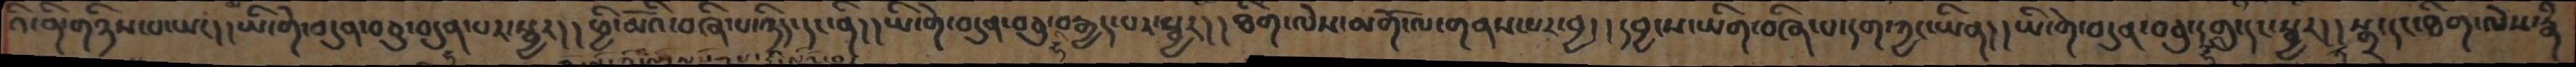འི་ནི་གཉིས་པ་ཡང། །ཡི་གེ་བདུན་བཅུ་བདུན་པར་སྦྱར། །ཕྱི་མོའི་བཞི་པ་ཉིད་དང་ནི། །ཡི་གེ་བདུན་བཅུ་བརྒྱད་པར་སྦྱར། །ཐིག་ལེས་མགོ་ལ་གནས་པར་བྱད། །དབྱངས་ཡིག་བཞི་པ་དག་ཀྱང་ཡིན། །ཡི་གེ་བདུན་བཅུ་གླུ་དང་སྦྱར། །སྒྲ་དང་ཐིག་ལེས་རྣཾ
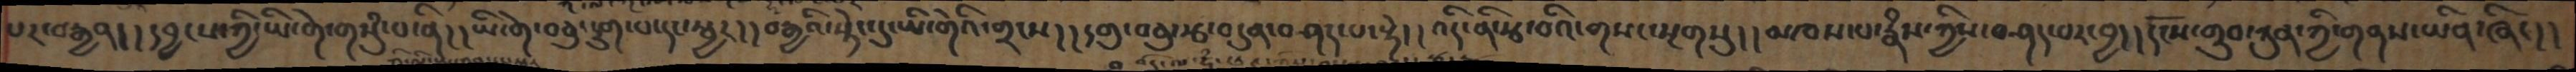པར་བརྒྱན། །དབྱངས་ཀྱི་ཡི་གེ་གསུཾ་པ་ནི། །ཡི་གེ་བཅུ་དྲུག་པ་དང་སྦྱར། །བརྒྱའི་སྟེང་དུ་ཡི་གེའི་གྲངས། །དགུ་བཅུ་རྩ་བདུན་བཤད་པ་སྟེ། །འདི་ནི་རྩ་བའི་གསང་སྔགསུ། །མཁས་པ་རྣཾས་ཀྱིས་བཤད་པར་བྱ། །དངོས་གྲུབ་ཀུན་ཀྱི་གནས་ཡིན་ཞིང། །
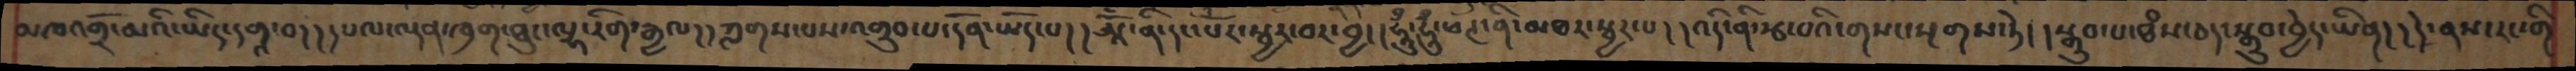མཁའགྲོ་མའི་ཡིད་དགའ་བ། །དཔལ་ལྡན་ཁྲག་ཐུང་ལྷ་རིག་རྒྱལ། །ཀླགས་པས་འགྲུབ་པ་དོན་ཡོད་པ། །ཨཱོྃ་ནི་དང་པོར་སྦྱར་བར་བྱ། །ཧཱུྃ་ཧཱུྃ་ཕཊ་ནི་མཐར་སྦྱར་པ། །འདི་ནི་རྩ་བའི་གསང་སྔགས་ཏེ། །སྒྲུབ་པ་ཐཾས་ཅད་སྒྲུབ་བྱེད་ཡིན། །དེ་ནས་རང་གི
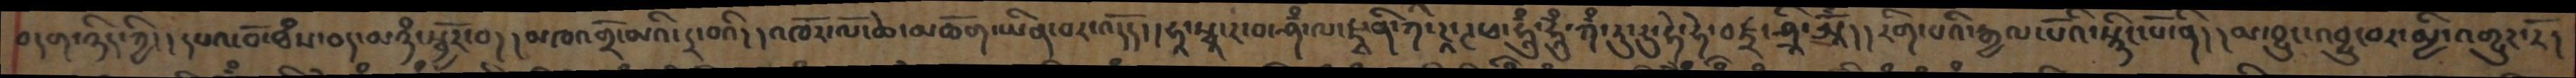བདག་ཉིད་ཀྱི།།དཔའ་བོ་ཐཾས་ཅད་མཉཾ་སྦྱོར་བ།།མཁའགྲོ་མའི་དྲ་བའི།།འཁོར་ལོ་ཆེ་མཆོག་ཡིན་པར་འདོད།།དྷ་སྭཱ་ར་བ་ཤཾ་ལ་ཛྭ་ནི་ཀི་ཌཱ་ཊཕ་ཧཱུྃ་ཧཱུྃ་ཀྃ་རུ་ཏུ་ཧེ་ཧེ་བཛྲ་ཤྲི་ཨཱོྃ།།རིག་པའི་རྒྱལ་པོའི་སྙིང་པོ་ནི།།མ་བྱུང་འབྱུང་བར་མྱི་འགྱུར་རོ།
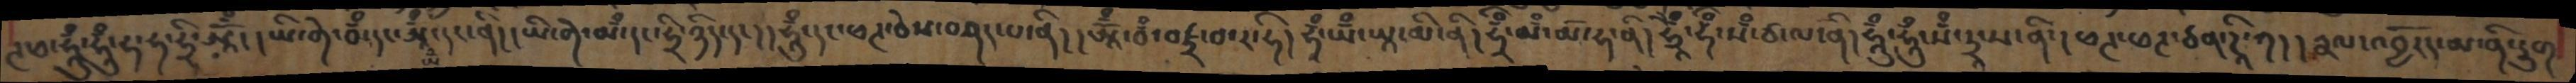ཊ་ཕ་ཧཱུྃ་ཧཱུྃ་ཧ་ཧ་ཧྲི་ཨཱོྃ།།ཡི་གེ་བྃ་དང་ཨཱྃ་དང་ནི།།ཡི་གེ་མྃ་དང་ཧྲི་ཉིད་དང།།ཧཱུྃ་དང་ཕཊ་ཅེས་བཤད་པ་ནི།།ཨཱོྃ་བྃ་བཛྲ་བ་ར་ཧི།ཧཱྃ་ཡྃ་ཡཱ་མི་ནི། ཧཱྃ་མྃ་མོ་ཧ་ནི།  ཧྲཱོྃ་ཧྃ་སཾ་ཙ་ལ་ནི། ཧཱུྃ་ཧཱུྃ་སྃ་དྲཱ་ས་ནི་།ཕཊ་ཕཊ་ཙན་ཌཱི་ཀ།།རྣལ་འབྱོརད་མ་ནི་དྲུག
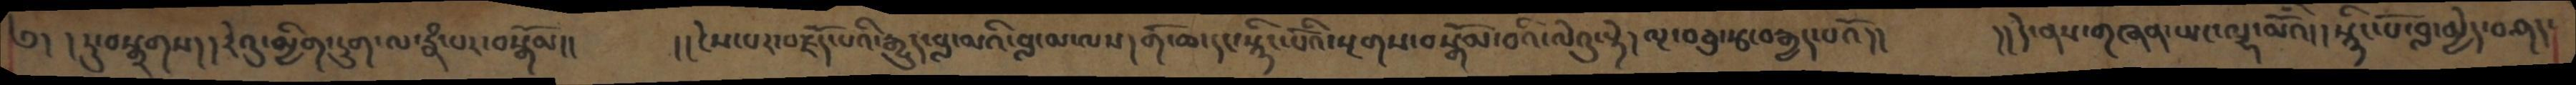༅། །ཏུ་བསྒྲགས།།རེའུ་མྱིག་དྲུག་ལ་རྣཾ་པར་བསྒོམ།།     །། ངེས་པར་བརྗོད་པའི་རྒྱུད་བླ་མའི་བླ་མ་ལས།གོ་ཆ་དང་སྙིང་པོའི་སྔགས་བསྒོམ་བའི་ལེའུ་སྟེ། ལྔ་བཅུ་རྩ་བརྒྱད་པའོ།།      །།དེ་ནས་གཞན་ཡང་ལྷ་མོའི།།སྙིང་པོ་བླ་མྱེད་བཤད་
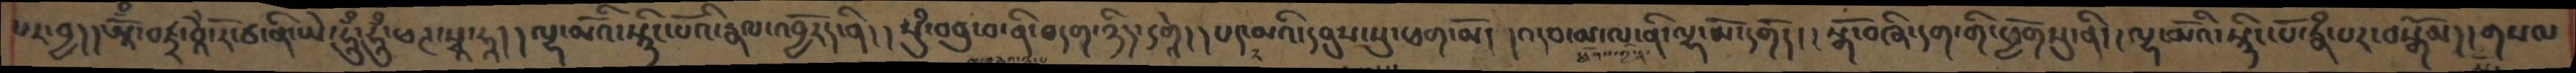པར་བྱ་།།ཨོྃ་བཛྲ་བཱཻ་རོ་ཙ་་ནི་ཡེ་ཧཱུྃ་ཧཱུྃ་ཕཊ་སྭཱ་ཧཱ། །ལྷ་མོའི་སྙིང་པོའི་རྣལ་འབྱོརད་ནི། །སུཾ་བཅུ་བ་ནི་བདག་ཉིད་དགེའ། །་པད་མའི་དབུས་སུ་ཕག་མོ། །འདབ་མ་ལ་ནི་ལྷ་མོ་དགོད། །སྒོ་བཞི་དག་གི་ཕྱོགསུ་ནི།།ལྷ་མོའི་སྙིང་པོ་རྣཾ་པར་བསྒོམ།།གསལ
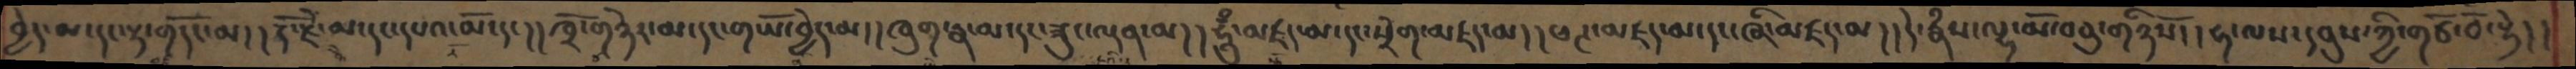བྱེད་མ་དང་རྟ་གདོང་མ།།རྡོ་རྗེ་མ་དང་དཔའ་མོ་དང་།།ཁྲོ་གཉེར་མ་དང་གཡོ་བྱེད་མ།།ཁུག་རྣ་མ་དང་ཟུང་ལྡན་མ།།ཧཱུྃ་མཛད་མ་དང་སྲེག་མཛད་མ།།ཕཊ་མཛད་མ་དང་ཞི་མཛད་མ།།དེ་རྣཾས་ལྷ་མོ་བཅུ་གཉིསོ།།ཧ་ལས་དབུས་ཀྱི་གཙོ་བོ་སྟེ། །
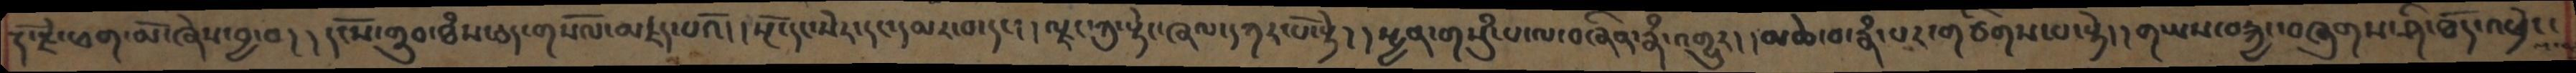རྡོ་རྗེ་ཕག་མོ་ཞེས་བྱ་བ། །དངོས་གྲུབ་ཐཾས་ཅད་གསོལ་མཛད་པའོ། །སྔོ་དང་སེར་དང་དམར་བ་དང་། །ལྗང་ཀུ་སྟེང་ཞལ་དཀར་པོ་སྟེ། །སྤྱན་གསུཾ་པ་ལ་བཞིན་རྣཾ་འགྱུར། །མཆེ་བ་རྣཾ་པར་གཙིགས་པར་སྟེ། །གཡས་བརྐྱང་བཞུགས་ཤི་ཐོད་འཕྲེང་
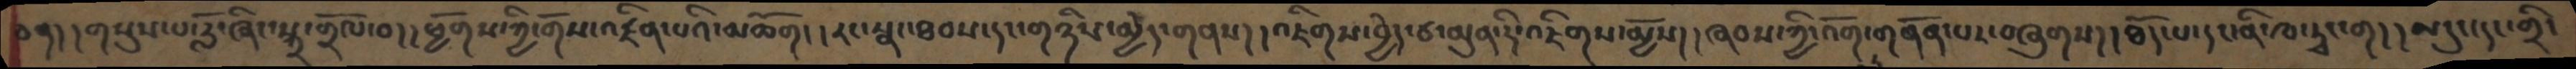ཅན།།གསུས་པ་རློ་ཞིང་སྐྲ་གྲོལ་བ།།ཕྱོགས་ཀྱི་གོས་འཛིན་པའི་མཆོག།།རང་སྣང་ཐབས་དང་གཉིས་མྱེད་གནས།།འཇིགས་བྱེད་ཙ་མུན་ཌི་འཇིགས་མྱོས།།ཞབས་ཀྱི་འགོ་གནོན་པར་བཞུགས།།ཐོད་པ་དང་ནི་ཁ་ཊྭང་ག།།མདུང་དང་གྲི་
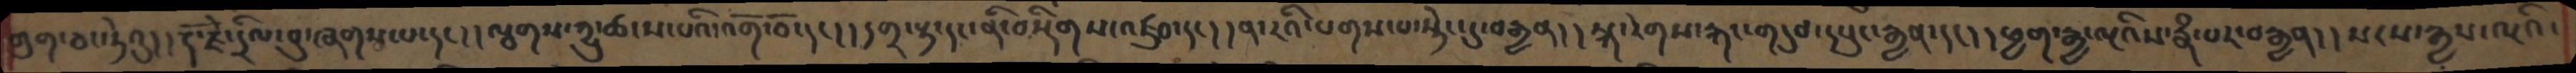གུག་ཅང་ཏེའུ།།རྡོ་རྗེ་དྲིལ་བུ་ཞགས་པ་དང།།ལྕགས་ཀྱུ་ཚངས་པའི་འགོ་བོ་དང།།དགྲ་སྟ་དང་ནི་བསྡིགས་འཛུབ་དང།།ན་རའི་པགས་པ་སྟེང་དུ་བརྒྱན།།སྐ་རེགས་རྐང་གདུབ་དཔུང་རྒྱན་དང།།ཕྱག་རྒྱ་ལྔའིས་རྣཾ་པར་བརྒྱན།།སངས་རྒྱས་ལྔའི་
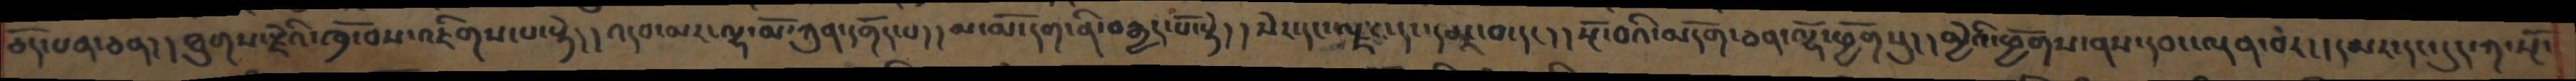ཅོད་པན་ཅན།།ཐུགས་རྗེའི་ཁྲོ་བས་འཇིགས་པ་སྟེ།།འདབ་མར་ལྷ་མོ་ཀུན་དགོད་པ།།མ་མོ་དག་ནི་བརྒྱད་པོ་སྟེ།།སེར་དང་ལྗང་དང་དམར་བ་དང་།།སྔོ་བའི་མདོག་ཅན་ལྷོ་ཕྱོགསུ།།མྱེའི་ཕྱོགས་ནས་དབང་ལྡན་བར།།དམར་དང་དུད་ཀ་སྔོ་
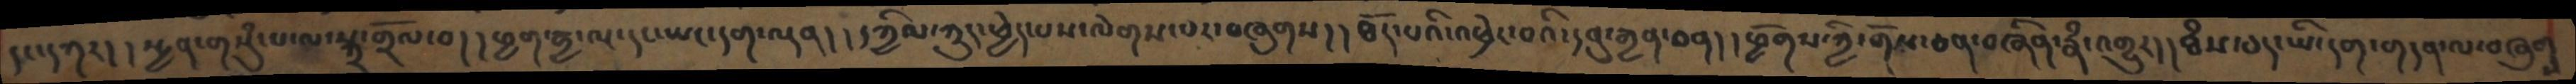དང་དཀར།།སྤྱན་གསུཾ་པ་ལ་སྐྲ་གྲོལ་བ།།ཕྱག་རྒྱ་ལྔ་དང་ཡང་དག་ལྡན།།དཀྱིལ་ཀྲུང་ཕྱེད་པས་ལེགས་པར་བཞུགས།།ཐོད་པའི་འཕྲེང་བའི་དབུ་རྒྱན་ཅན།།ཕྱོགས་ཀྱི་གོས་ཅན་བཞིན་རྣཾ་འགྱུར།།ཐཾས་ཅད་ཡི་དག་གདན་ལ་བཞུགས
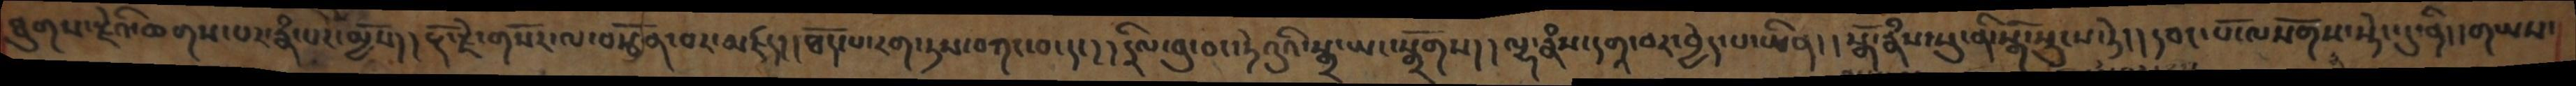ཐུགས་རྗེའི་ཆགས་པར་རྣཾ་པར་མྱོས།།རྡོ་རྗེ་གསོར་ལ་བརྩོན་པར་མཛད།།ཐོད་པ་རག་ཏས་བཀང་བ་དང།།དྲིལ་བུ་ཅང་ཏེའུའི་སྒྲ་ཡང་སྒྲོགས།།ལྷ་རྣཾས་དགའ་བར་བྱེད་པ་ཡིན།།སྒོ་རྣཾས་སུ་ནི་སྒོ་སྲུངས་ཏེ།།དབང་པོ་ལསོགས་སྡེང་དུ་ནི།།གཡས་
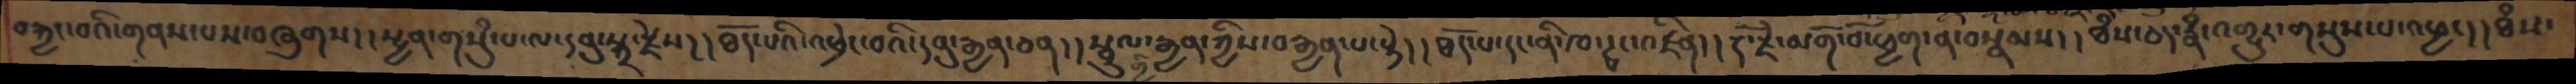བརྐྱང་བའི་གནས་པས་བཞུགས།།སྤྱན་གསུཾ་པ་ལ་དབུ་སྐྲ་རྗེས།།ཐོད་པའི་འཕྲེང་བའི་དབུ་རྒྱན་ཅན།།སྦྲུལ་གྱི་རྒྱན་ཀྱིས་བརྒྱན་པ་སྟེ།།ཐོད་པ་དང་ནི་ཁ་ཊྭང་འཛིན།།རྡོ་རྗེ་མགོ་བོ་ཕྱག་ན་བསྣམས།།ཐཾས་ཅད་རྣཾ་འགྱུར་གསུས་པ་འཕྱང།།ཐཾས་
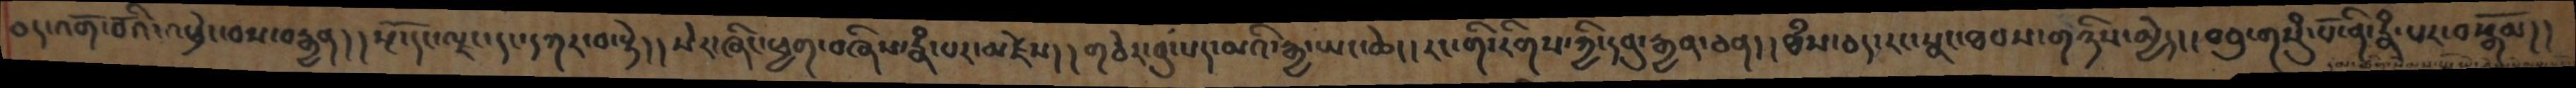ཅད་འགོ་བོའི་འཕྲེང་བས་བརྒྱན།།སྔོ་དང་ལྗང་དང་དཀར་བ་སྟེ།།སེར་ཞིང་ཕྱག་བཞིས་རྣཾ་པར་མཛེས།།གཅེར་བུ་པད་མའི་རྒྱ་ཡང་ཆེ།།རང་གི་རིགས་ཀྱི་དབུ་རྒྱན་ཅན།།ཐཾས་ཅད་རང་སྣང་ཐབས་གཉིས་མྱེད།།བཅུ་གསུཾ་པོ་ནི་རྣཾ་པར་བསྒོམ།།
